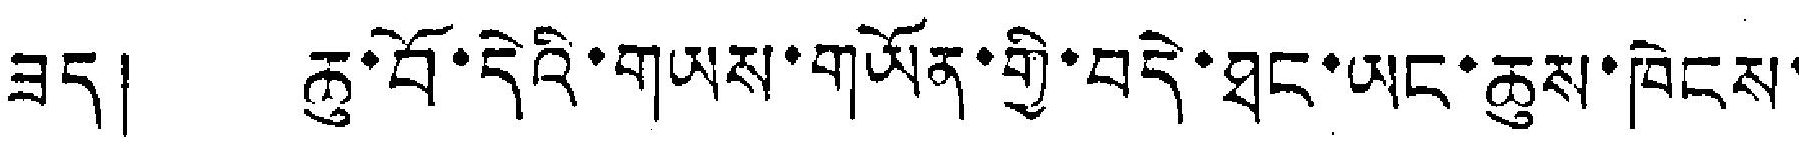ཟད། ཆུ་བོ་དེའི་གཡས་གཡོན་གྱི་བདེ་ཐང་ཡང་ཆུས་ཁེངས་
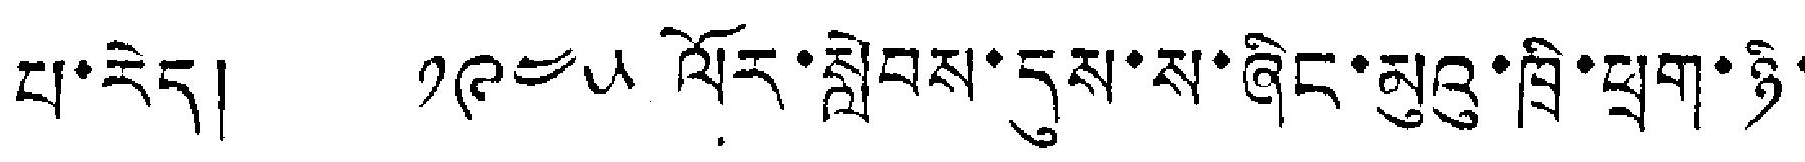པ་རེད། ༡༩༤༥ ལོར་སླེབས་དུས་ས་ཞིང་མུའུ་ཁྲི་ཕྲག་ཉི་
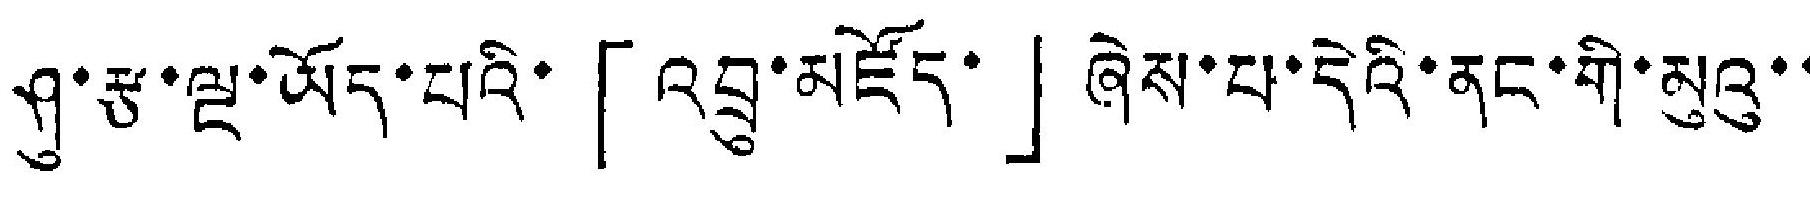ཤུ་རྩ་ལྔ་ཡོད་པའི་「འབྲུ་མཛོད་」ཞེས་པ་དེའི་ནང་གི་མུའུ་་
